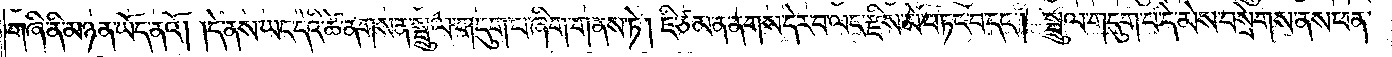གཞི་ནི་མཉན་ཡོད་ནའོ། །དེ་ནས་ཡང་དེའི་ཚེ་ནགས་ན་སྦྲུལ་གདུག་པ་ཞིག་གནས་ཏེ། ཇི་ཙམ་ན་ནགས་དེར་བ་ལང་རྫིས་མེ་བཏང་བ་དང༌། སྦྲུལ་གདུག་པ་དེ་མེས་བསྲེགས་ནས་ཕན་
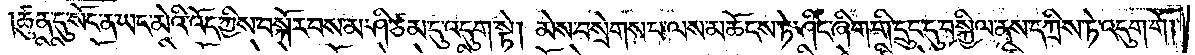ཚུན་དུ་སོང་ན་ཡང་མེའི་འོད་ཀྱིས་བསྐོར་བས་མ་ཤི་ཙམ་དུ་འདུག་སྟེ། མེས་བསྲེགས་པ་ལས་མཆོངས་ཏེ་ཤིང་ཞིག་གི་དྲུང་དུ་བསྐྱིལ་ནས་དཀྲིས་ཏེ་འདུག་གོ། །
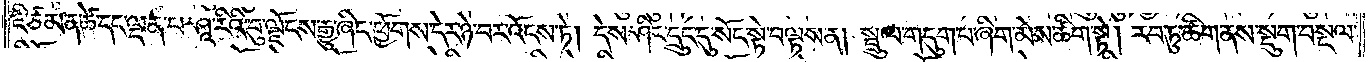ཇི་ཙམ་ན་ཚེ་དང་ལྡན་པ་ཤཱ་རིའི་བུ་ལྗོངས་རྒྱུ་ཞིང་ཕྱོགས་དེར་ཉེ་བར་འོངས་ཏེ། དེས་ཤིང་དྲུང་དུ་སོང་སྟེ་བལྟས་ན། སྦྲུལ་གདུག་པ་ཞིག་མེས་ཚིག་སྟེ། རབ་ཏུ་ཚིག་ནས་སྡུག་བསྔལ་
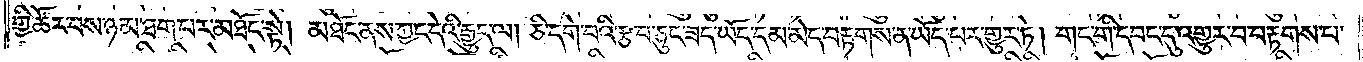གྱི་ཚོར་བས་ཉམ་ཐག་པར་མཐོང་སྟེ། མཐོང་ནས་ཀྱང་དེའི་རྒྱུད་ལ། ཅི་དགེ་བའི་རྩ་བ་ཅུང་ཟད་ཡོད་དམ་མེད་བརྟགས་ན་ཡོད་པར་གྱུར་ཏེ། གང་གི་དབང་དུ་འགྱུར་བ་བརྟགས་པ་
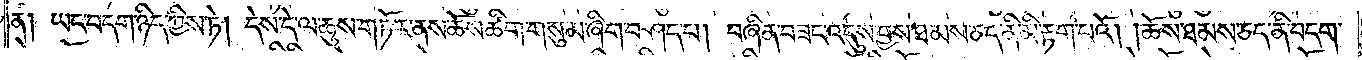ན། ཡང་བདག་ཉིད་ཀྱིས་ཏེ། དེས་དེ་ལ་ཆུས་གཏོར་ནས་ཆོས་ཚིག་གསུམ་ཞིག་བཤད་པ། བཞིན་བཟང་འདུས་བྱས་ཐམས་ཅད་ནི་མི་རྟག་པའོ། །ཆོས་ཐམས་ཅད་ནི་བདག་
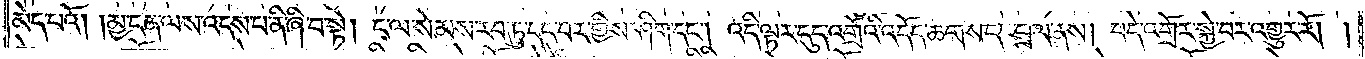མེད་པའོ། །མྱ་ངན་ལས་འདས་པ་ནི་ཞི་བ་སྟེ། ང་ལ་སེམས་རབ་ཏུ་དང་བར་གྱིས་ཤིག་དང༌། འདི་ལྟར་དུད་འགྲོའི་འདོད་ཆགས་དང་བྲལ་ནས། བདེ་འགྲོར་སྐྱེ་བར་འགྱུར་རོ། །
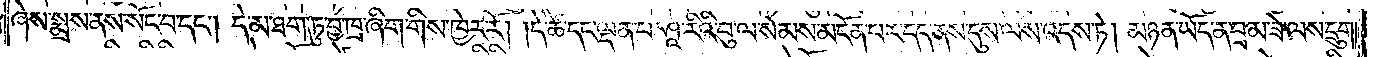ཞེས་སྨྲས་ནས་སོང་བ་དང༌། དེ་མ་ཐག་ཏུ་བྱ་ཁྲ་ཞིག་གིས་ཁྱེར་རོ། །དེ་ཚེ་དང་ལྡན་པ་ཤཱ་རིའི་བུ་ལ་སེམས་མངོན་པར་དད་ནས་དུས་ལས་འདས་ཏེ། མཉན་ཡོད་ན་བྲམ་ཟེ་ལས་དྲུག་
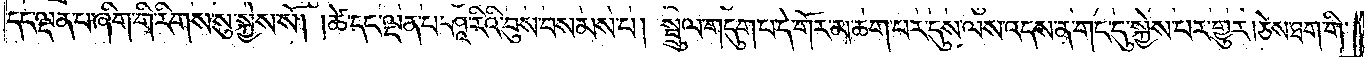དང་ལྡན་པ་ཞིག་གི་རིགས་སུ་སྐྱེས་སོ། །ཚེ་དང་ལྡན་པ་ཤཱ་རིའི་བུས་བསམས་པ། སྦྲུལ་གདུག་པ་དེ་གོར་མ་ཆག་པར་དུས་ལས་འདས་ན་གང་དུ་སྐྱེས་པར་གྱུར། ཅེས་ཐག་གི་
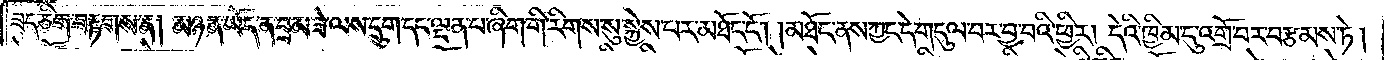ཟད་ཅིག་བརྟགས་ན། མཉན་ཡོད་ན་བྲམ་ཟེ་ལས་དྲུག་དང་ལྡན་པ་ཞིག་གི་རིགས་སུ་སྐྱེས་པར་མཐོང་ངོ༌། །མཐོང་ནས་ཀྱང་དེ་གདུལ་བར་བྱ་བའི་ཕྱིར། དེའི་ཁྱིམ་དུ་འགྲོ་བར་བརྩམས་ཏེ།
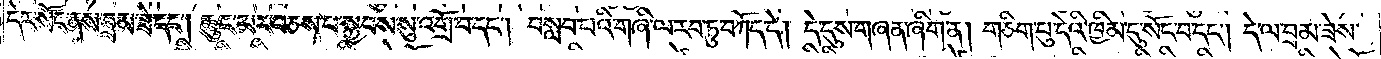དེར་སོང་ནས་བྲམ་ཟེ་དང༌། ཆུང་མར་བཅས་པ་སྐྱབས་སུ་འགྲོ་བ་དང༌། བསླབ་པའི་གཞི་ལ་རབ་ཏུ་བཀོད་དེ། དེ་དུས་གཞན་ཞིག་ན། གཅིག་པུ་དེའི་ཁྱིམ་དུ་སོང་བ་དང༌། དེ་ལ་བྲམ་ཟེས་
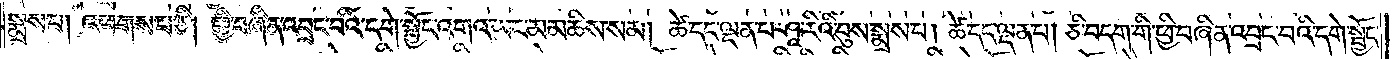སྨྲས་པ། འཕགས་པ་ཅི། ཕྱི་བཞིན་འབྲང་བའི་དགེ་སྦྱོང་འགའ་ཡང་མ་མཆིས་སམ། ཚེ་དང་ལྡན་པ་ཤཱ་རིའི་བུས་སྨྲས་པ། ཚེ་དང་ལྡན་པ། ཅི་བདག་གི་ཕྱི་བཞིན་འབྲང་བའི་དགེ་སྦྱོང་
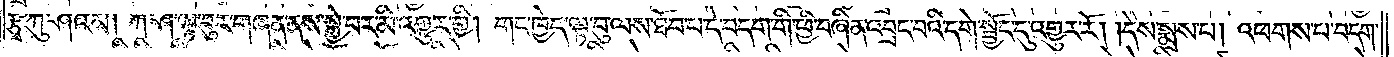རྩྭ་ཀུ་ཤའམ། ཀ་ཤ་ལྟ་བུར་གཞན་ནས་སྐྱེ་བར་མི་འགྱུར་གྱི། གང་ཁྱེད་ལྟ་བུ་ལས་ཐོབ་པ་དེ་བདག་གི་ཕྱི་བཞིན་འབྲང་བའི་དགེ་སྦྱོང་དུ་འགྱུར་རོ། །དེས་སྨྲས་པ། འཕགས་པ་བདག་
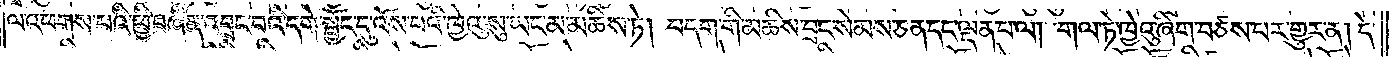ལ་འཕགས་པའི་ཕྱི་བཞིན་འབྲང་བའི་དགེ་སྦྱོང་དུ་འོས་པའི་ཁྱེའུ་སུ་ཡང་མ་མཆིས་ཏེ། བདག་གི་མཆིས་བྲང་སེམས་ཅན་དང་ལྡན་པ་ལ། གལ་ཏེ་ཁྱེའུ་ཞིག་བཙས་པར་གྱུར་ན། དེ་
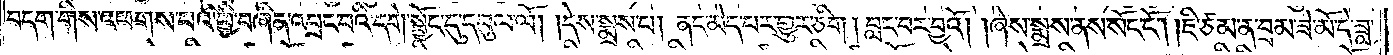བདག་གིས་འཕགས་པའི་ཕྱི་བཞིན་འབྲང་བའི་དགེ་སྦྱོང་དུ་དབུལ་ལོ། །དེས་སྨྲས་པ། ནང་མེད་པར་གྱུར་ཅིག །བླང་བར་བྱའོ། །ཞེས་སྨྲས་ནས་སོང་ངོ༌། །ཇི་ཙམ་ན་བྲམ་ཟེ་མོ་དེ་ཟླ་
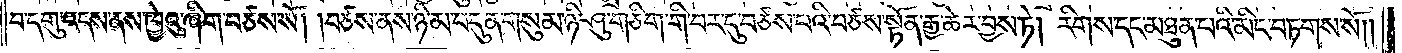བ་དགུ་འདས་ནས་ཁྱེའུ་ཞིག་བཙས་སོ། །བཙས་ནས་ཉི་མ་བདུན་གསུམ་ཉི་ཤུ་གཅིག་གི་བར་དུ་བཙས་པའི་བཙས་སྟོན་རྒྱ་ཆེར་བྱས་ཏེ། རིགས་དང་མཐུན་པའི་མིང་བརྟགས་སོ༎
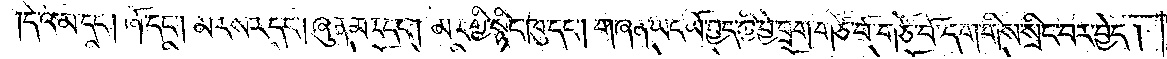དེ་འོ་མ་དང༌། ཞོ་དང༌། མར་སར་དང༌། ཞུན་མར་དང༌། མར་གྱི་སྙིང་ཁུ་དང༌། གཞན་ཡང་ཡོ་བྱད་ཀྱི་བྱེ་བྲག་གཙོ་བོ་གཙོ་བོ་དག་གིས་སྲིང་བར་བྱེད།
